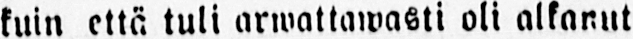tuin että tuli arwattawasti oli alkanut
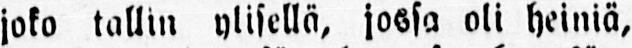joko tallin ylisellä, jossa oli heiniä,
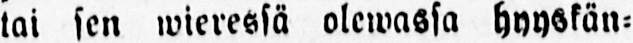tai sen wieressä olewassa hyyskän-
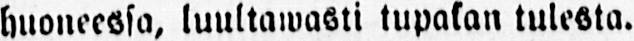huoneessa, luultawasti tupakan tulesta.
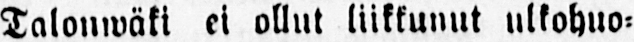Talonwäki el ollut liikkunut ulkohuo-
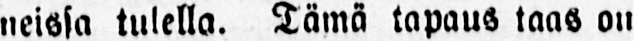neissa tulella. Tämä tapaus taas on
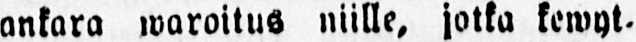ankara waroitus niille, jotka kemyt-
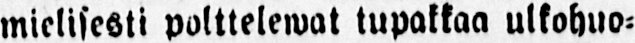mielisesti polttelewat tupakkaa ulkohuo-
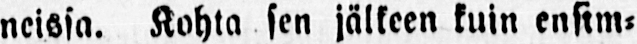neissa. Kohta sen jälkeen kuin ensim-
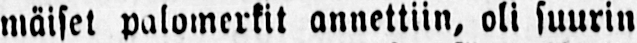mäiset palomerkit annettiin, oli suurin
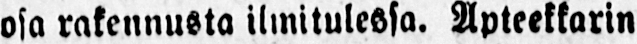osa rakennusta ilmitulesa. Apteekkarin
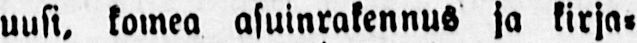uusi, komea asuinrakennus ja kirja-
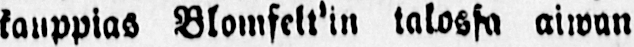kauppias Blomfelt'in talossa aiwan
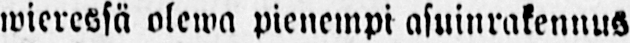wieressä olewa pienempi asuinrakennus
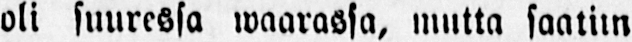oli suuressa waarassa, mutta saatiin
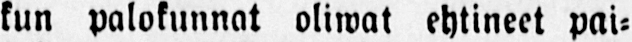kun palokunnat oliwat ehtineet pai-
